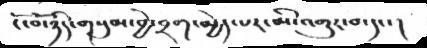ངོ་བོ་ཉིད་གསུམ་བྱེ་བྲག་མྱེད་པར་མི་འགྱུར་བ་དང་།
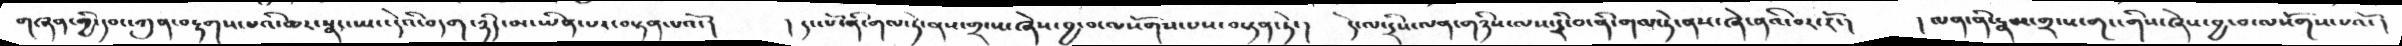གཞན་གྱི་དབང་ཀུན་བརྟགས་པའི་ཆར་སྣང་ཡང་དེའི་བདག་ཉིད་མ་ཡིན་པར་བསྟན་པའོ་།  །དང་པོ་ནི་གལ་ཏེ་ནས་གྲངས་ཞེས་བྱ་བ་ལསོགས་པས་བསྟན་ཏེ་།   དེ་ལ་དྲིས་ལན་གཉིས་ལས་དྲི་བ་ནི་གལ་ཏེ་ནས་ཞེ་ནའི་བར་རོ་།  ། ལན་ནི་རྣམ་གྲངས་གང་གིས་ཞེས་བྱ་བ་ལསོགས་པའོ་།
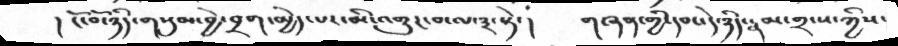། ངོ་བོ་ཉིད་གསུམ་བྱེ་བྲག་མྱེད་པར་མི་འགྱུར་བ་ལ་༣་སྟེ་།  གཞན་གྱི་དབང་དེ་ཉིད་རྣམ་གྲངས་ཀྱིས་
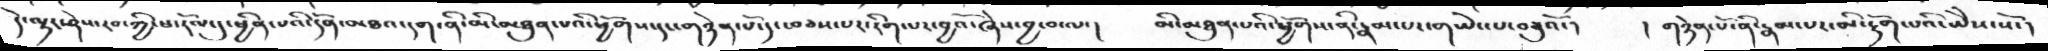དེ་ལྟར་ཤེས་རབ་ཀྱི་ཕ་རོལ་དུ་ཕྱིན་པའི་དོན་མཐའ་དག་ནི་མི་མཐུན་པའི་ཕྱོགས་དང་གཉེན་པོ་དང་བཅས་པར་རིག་པར་བྱའོ་ཞེས་བྱ་བ་ལ་།  མི་མཐུན་པའི་ཕྱོགས་ནི་རྣམ་པར་གཡེང་པ་བཅུའོ་།   །གཉེན་པོ་ནི་རྣམ་པར་མི་རྟོག་པའི་ཡེེས་སོ་།
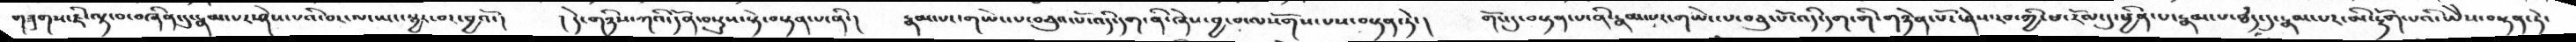གཟུགས་ཇི་ལྟ་བ་བཞིན་དུ་རྣམ་པར་ཤེས་པའི་བར་ལ་ཡང་སྦྱར་བར་བྱའོ་།   ། དེ་གཉིས་ཀའི་དོན་བསྡུས་སྟེ་བསྟན་པ་ནི་།  རྣམ་པར་གཡེང་པ་བཅུའ་པོ་འདི་དག་ནི་ཞེས་བྱ་བ་ལསོགས་པས་བསྟན་ཏེ་།  གོང་དུ་བསྟན་པ་ནི་རྣམ་པར་གཡེང་པ་བཅུ་པོ་འདི་དག་གི་གཉེན་པོ་ཤེས་རབ་ཀྱི་ཕ་རོལ་དུ་ཕྱིན་པ་རྣམ་པ་ཐདཾ་དུ་རྣམ་པར་མི་རྟོག་པའི་ཡེེས་བསྟན་ཏེ་
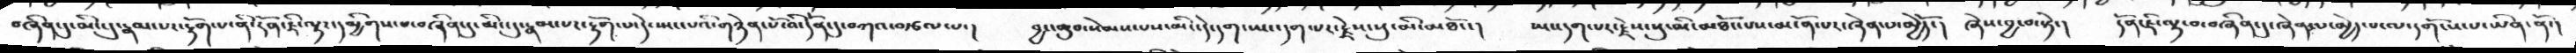བཞིན་དུ་མིང་དུ་རྣམ་པར་རྟོག་པ་ནི་དོན་ཇི་ལྟར་དམྱིགས་པ་བཞིན་དུ་མིང་དུ་རྣམ་པར་རྟོག་པ་དེ་སྤང་པའི་གཉེན་པོ་འི་དོན་དུ་བཀའ་བརྩལ་པ་།  བྱང་ཆུབ་སེམས་པས་མིང་དེ་དག་ཡང་དག་པར་རྗེས་སུ་མི་མཐོང་།  ཡང་དག་པར་རྗེས་སུ་མི་མཐོང་པས་མངོན་པར་ཞེན་པ་མྱེདོ་།  ཞེས་བྱ་བ་སྟེ་།  དོན་ཇི་ལྟ་བ་བཞིན་དུ་ཞེན་པ་མྱེད་པ་ལ་དགོངས་པ་ཡིན་ནོ་།
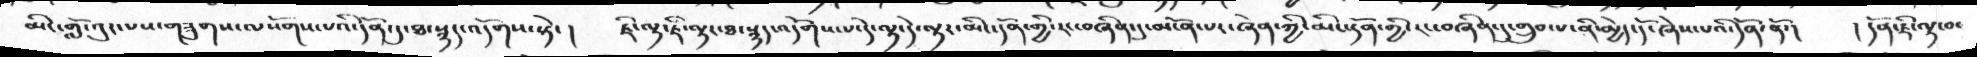མངི་གློ་འུར་པས་གཟུགས་ལསོགས་པའི་དོན་དུ་ཐ་སྙད་འདོགས་སྟེ་།  ཇི་ལྟ་ཇི་ལྟར་ཐ་སྙད་འདོགས་པ་དེ་ལྟ་དེ་ལྟར་མིང་དོན་གྱི་རང་བཞིན་དུ་མངོན་པར་ཞེན་ཀྱི་མིང་དོན་གྱི་རང་བཞིན་གྲུབ་པ་ནི་མྱེད་དོ་ཞེས་པའི་དོན་ནོ་།  །དོན་ཇི་ལྟ་བ་
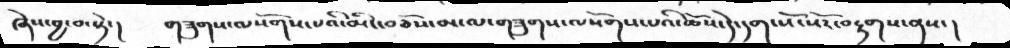ཞེས་བྱ་བ་སྟེ་།  གཟུགས་ལསོགས་པའི་མིང་བཅོས་མ་ལ་གཟུགས་ལསོགས་པའི་ཆོས་དེ་དག་སོ་སོར་བརྟགས་ནས་།
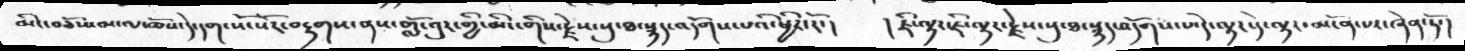མིང་བཅོས་མ་ལ་ཆོས་དེ་དག་སོ་སོར་བརྟགས་ནས་གློ་བུར་གྱི་མིང་གིས་རྗེས་སུ་ཐ་སྙད་འདོགས་པའི་ཕྱིར་རོ་།   །ཇི་ལྟར་ཇི་ལྟར་རྗེས་སུ་ཐ་སྙད་འདོགས་པ་དེ་ལྟར་དེ་ལྟར་མངོན་པར་ཞེན་ཏོ་།
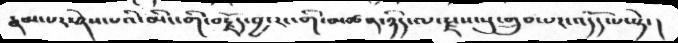རྣམ་པར་ཤེས་པའི་མིང་གི་བརྗོད་བྱ་རང་གི་མཚན་ཉིད་ལ་རྫས་སུ་གྲུབ་པར་འདོད་པ་སྟེ་།
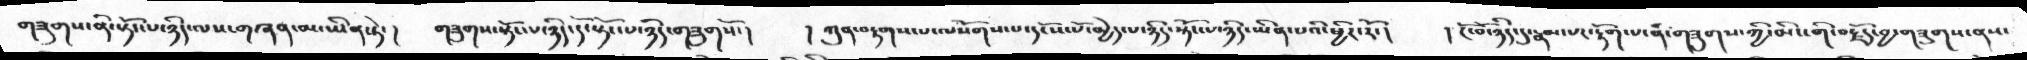གཟུགས་ནི་སྟོང་པ་ཉིད་ལས་གཞན་མ་ཡིན་ཏེ་།  གཟུགས་སྟོང་པ་ཉིད་དོ་སྟོང་པ་ཉིད་གཟུགསོ་།  ། ཀུན་བརྟགས་པ་ལསོགས་པ་དངོས་པོ་མྱེད་པ་ཉིད་སྟོང་པ་ཉིད་ཡིན་པའི་ཕྱིར་རོ་།  ། ངོ་བོ་ཉིད་དུ་རྣམ་པར་རྟོག་པ་ནི་གཟུགས་ཀྱི་མིང་གི་བརྗོད་བྱ་གཟུགས་ནས་
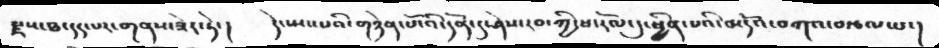རྫས་ཐ་དད་པར་གནས་ཟེར་ཏེ་།  དེ་སྤང་པའི་གཉེན་པོ་འི་དོན་དུ་ཤེས་རབ་ཀྱི་ཕ་རོལ་དུ་ཕྱིན་པའི་མདོའ་བཀའ་བརྩལ་པ་།
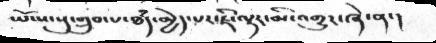ཡོངས་སུ་གྲུབ་པ་ཐཾད་མྱེད་པར་ཇི་ལྟར་མི་འགྱུར་ཞེ་ན་།
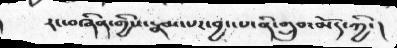རང་བཞིན་གྱིས་རྣམ་པར་བྱང་པ་ནི་གྲུབ་མོད་ཀྱི་།
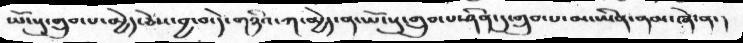ཡོངས་སུ་གྲུབ་པ་མྱེད་ཅེས་བྱ་བ་དེ་གཉིའ་ཀ་མྱེད་ན་ཡོངསུ་གྲུབ་པ་ཤིན་དུ་གྲུབ་པ་མ་ཡིན་ནམ་ཞེ་ན་།
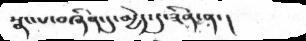སྣང་པ་བཞིན་དུ་མྱེད་དུ་ཟིན་ན་།
